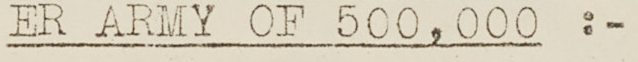ER ARMY OF 500,000:
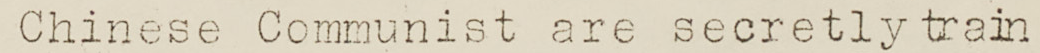Chinese Communist are secretly train
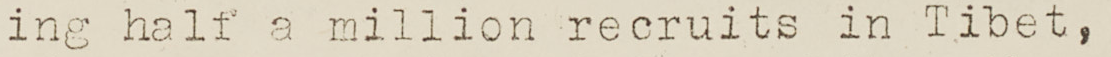ing half a million recruits in Tibet,
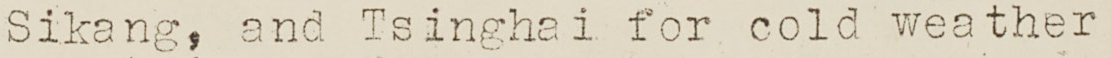Sikang, and Tsinghai for cold weather
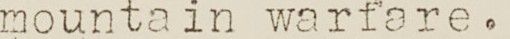mountain warfare.
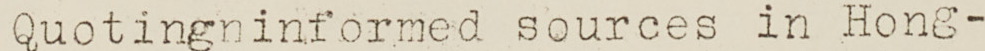Quotingninformed sources in Hong-
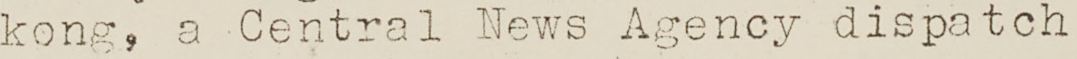kong, a Central News Agency dispatch
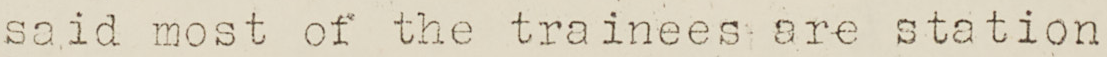said most of the trainees are station
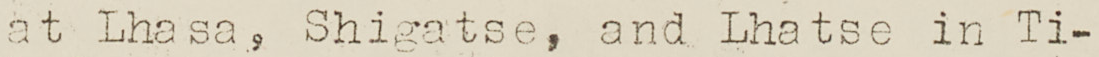at Lhasa, Shigatse, and Lhatse in Ti-
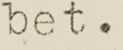bet.
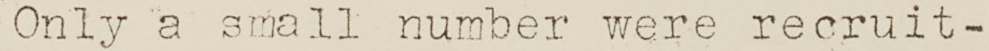Only a small number were recruit-
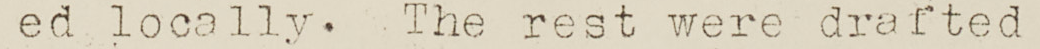ed locally. The rest were drafted
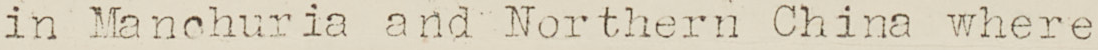in Manchuria and Northern China where
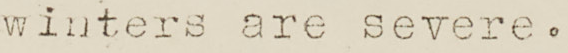winters are severe.
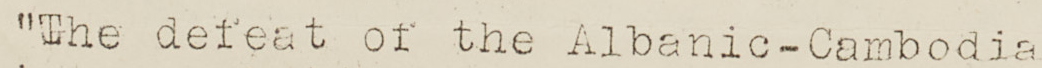"The defeat of the Albanic-Cambodia
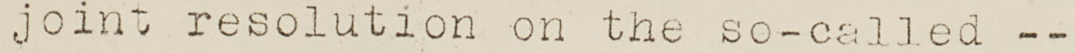joint resolution on the so-called --
